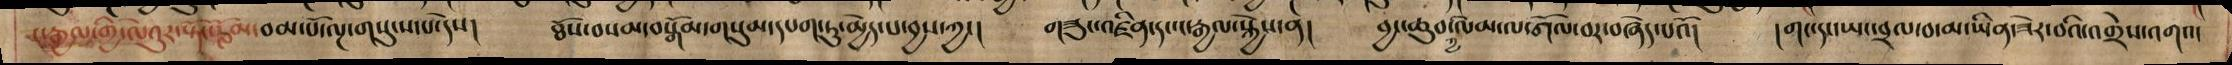ང་རྒྱལ་གྱི་ལེའུར་སྟོང་རློམ་བམ་པོ་ལྔ་གསུངས་པ་དེས། ཐོས་བསམ་བསྒོམ་གསུམ་དཔག་ཏུ་མྱེད་པ་བྱས་ཀྱང། གཟུང་འཛིན་དང་ང་རྒྱལ་སྐྱེས་ན། བྱང་ཆུབ་ལམ་ལ་གོལ་བར་བཞེད་པའོ། །གང་དང་ཡང་བྲལ་བ་མ་ཡིན་ཟེར་བའི་འགྲེས་འགའ་
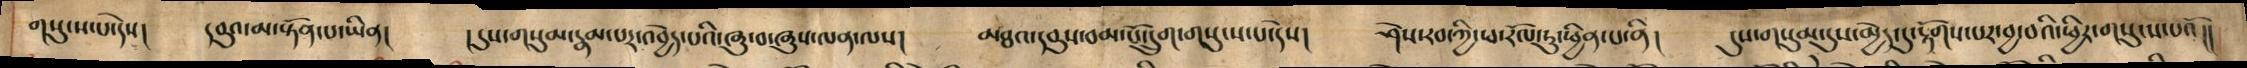གསུངས་པ་དེས། དབུའ་མ་སྟོན་པ་ཡིན། །དུས་གསུམ་རྣམ་པར་འབྱེད་པའི་ཞུ་བ་ཞུས་ལན་ནས། མཐའ་དབུས་བམ་པོ་དྲུག་གསུངས་པ་དེས། ཤེས་རབ་ཀྱི་ཕ་རོལ་ཏུ་ཕྱིན་པ་ནི། དུས་གསུམ་དུས་མྱེད་དུ་རྟོགས་པར་བྱ་བའི་ཕྱིར་གསུངས་པའོ།།
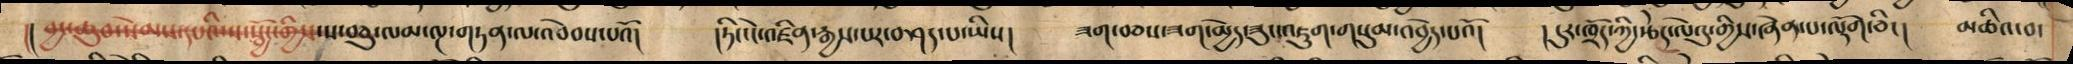།། བྱང་ཆུབ་སེམས་དཔའི་ས་སྦྱོང་གྱིས་ས་བཅུ་ལམ་ལྔ་གཏན་ལ་འབེབས་པའོ། །ཏིང་ངེ་འཛིན་རྒྱས་པར་བཤད་པ་ཡིས། ཟག་བཅས་ཟག་མྱེད་ཟུང་འཇུག་གསུམ་འབྱེད་པའོ། ། དུར་ཁྲོད་ཀྱི་རྩེད་ལེའུ་གྱིས་ཞེན་པ་ལྡོག་ཅིང། མཆིའ་བ་
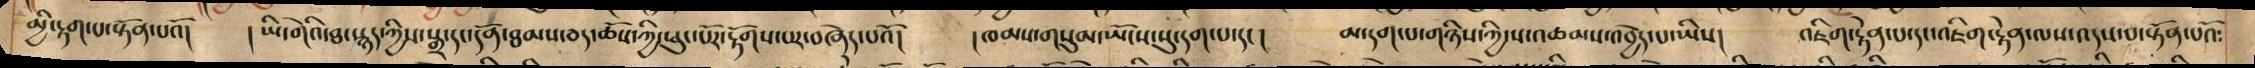མྱི་རྟག་པ་སྟོན་པའོ། ། ཡི་གེའི་ཐ་སྙད་ཀྱིས་སྒྲ་དང་དོན་ཐམས་ཅད་ཆོས་ཀྱི་ཕུང་པོར་རྟོགས་པར་བཞེད་པའོ། །ཁམས་གསུམ་ཡོངས་སུ་དག་པ་དང། མ་དག་པ་གཉིས་ཀྱི་ས་འཆམས་འབྱེད་པ་ཡིས། འཇིག་རྟེན་པ་དང་འཇིག་རྟེན་ལས་འདས་པ་སྟོན་པའོ:
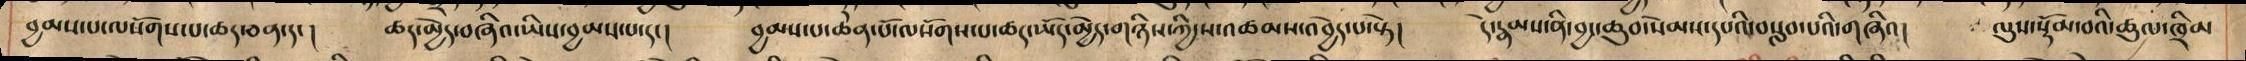བྱམས་པ་ལསོགས་པ་ཆད་ཅན་དང། ཆད་མྱེད་བཞིའ་ཡིས་བྱམས་པ་དང། བྱམས་པ་ཆེན་པོ་ལསོགས་པ་ཆད་ཡོད་མྱེད་གཉིས་ཀྱི་ས་འཚམས་འབྱེད་པ་སྟེ། དེ་རྣམས་ནི་བྱང་ཆུབ་སེམས་དཔའི་བསླབ་པའི་གཞིའ། ལུས་སྡོམ་བའི་ཚུལ་ཁྲིམ
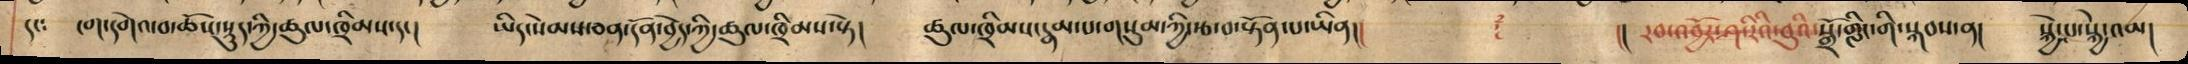དང: ངག་དགེའ་བ་ཆོས་སྡུད་ཀྱི་ཚུལ་ཁྲིམས་དང། ཡིད་སེམས་ཅན་དོན་བྱེད་ཀྱི་ཚུལ་ཁྲིམས་སྟེ། ཚུལ་ཁྲིམས་རྣམ་པ་གསུམ་ཀྱི་རྩ་བ་སྟོན་པ་ཡི།། ༈ །། རབ་འབྱོར་ཤ་རིའི་བུའི་སྒྲོ་གླིང་གི་སྐབས་ན། སྐྱེ་པ་སྐྱེ་འམ།
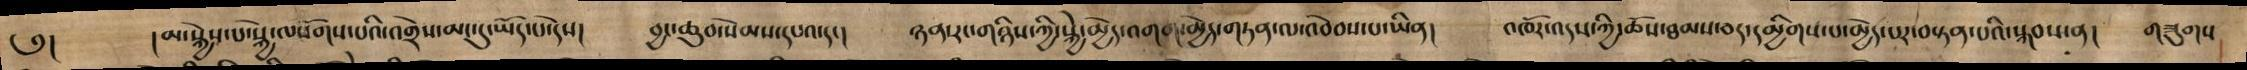༄༅། །མ་སྐྱེས་པ་སྐྱེས་ལསོགས་པའི་འགྲེས་མང་དུ་ཡོད་པ་དེས། བྱང་ཆུབ་སེམས་དཔའ་དང། ཉན་རང་གཉིས་ཀྱི་སྐྱེ་མྱེད་འགག་མྱེད་གཏན་ལ་འབེབས་པ་ཡིན། འཁོར་འདས་ཀྱི་ཆོས་ཐམས་ཅད་དམྱིགས་པ་མྱེད་པར་བསྟན་པའི་སྐབས་ན། གཟུགས
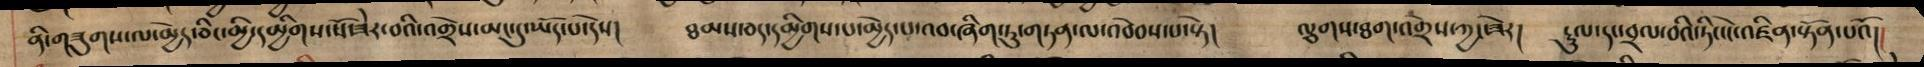ནི་གཟུགས་ལ་མྱེད་ཅིང་མྱི་དམྱིགས་སོ་ཟེར་བའི་འགྲེས་མང་དུ་ཡོད་པ་དེས། ཐམས་ཅད་དམྱིགས་པ་མྱེད་པ་འབ་ཞིག་ཏུ་གཏན་ལ་འབེབས་པ་སྟེ། ལྕགས་ཐག་འགྲེས་ཀྱང་ཟེར། རྡུལ་དང་བྲལ་བའི་ཏིང་ངེ་འཛིན་སྟོན་པའོ།།
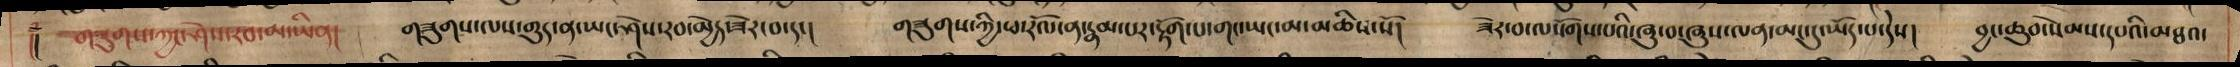།། གཟུགས་ཀྱང་ཤེས་རབ་མ་ཡི། གཟུགས་ལས་གུད་ན་ཡང་ཤེས་རབ་མྱེད་ཟེར་བ་དང། གཟུགས་ཀྱི་ཕ་རོལ་ན་རྣམ་པར་རྟོག་པ་གང་ཡང་མ་མཆིས་སོ། ཟེར་བ་ལསོགས་པའི་ཞུ་བ་ཞུས་ལན་མང་དུ་ཡོད་པ་དེས། བྱང་ཆུབ་སེམས་དཔའི་མཐའ་
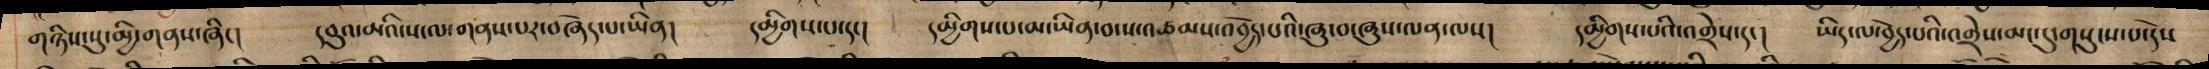གཉིས་སུ་མྱི་གཉས་ཞིང། དབུའ་མའི་ས་ལ་གནས་པར་བཞེད་པ་ཡི། དམྱིགས་པ་དང། དམྱིགས་པ་མ་ཡིན་བ་ས་འཚམས་འབྱེད་པའི་ཞུ་བ་ཞཱུས་ལན་ལས། དམྱིགས་པའི་འགྲེས་དང། ཡིད་ལ་བྱེད་པའི་འགྲེས་མང་དུ་གསུངས་པ་དེས
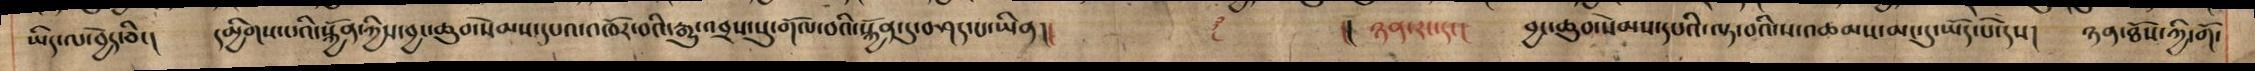ཡིད་ལ་བྱེད་ཅིང། དམྱིགས་པའི་སྐྱོན་ཀྱིས་བྱང་ཆུབ་སེམས་དཔའ་འཁོར་བའི་རྒྱུ་འབྲས་སུ་གོལ་བའི་སྐྱོན་དུ་བཤད་པ་ཡིན།། །། ཉན་རང་དང། བྱང་ཆུབ་སེམས་དཔའི་ལྟ་བའི་ས་འཚམས་མང་དུ་ཡོད་པ་དེས། ཉན་ཐོས་ཀྱི་གོ་
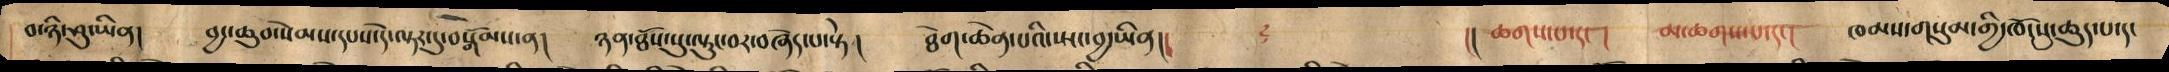བ་ཉི་ཤུ་ཡིན། བྱང་ཆུབ་སེམས་དཔས་དེ་ལྟར་དུ་བསྒོམས་ན། ཉན་ཐོས་སུ་ལྟུང་བར་བཞེད་པ་སྟེ། ཐེག་ཆེན་པའི་ཡང་བྱ་ཡིན། །། ཆགས་པ་དང ། མ་ཆགས་པ་དང། ཁམས་གསུམ་གྱི་ཁོངསུ་ཆུད་པ་དང
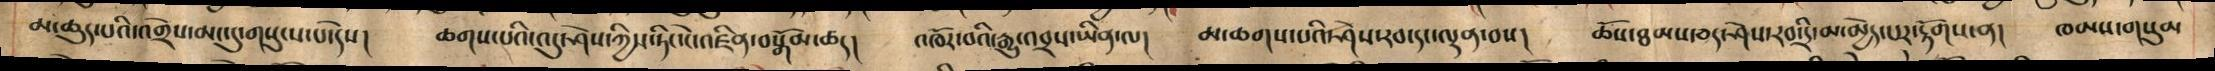མ་ཆུད་པའི་འགྲེས་མང་དུ་གསུངས་པ་དེས། ཆགས་པའི་འདུ་ཤེས་ཀྱིས་ཏིང་ངེ་འཛིན་བསྒོམ་ཆད། འཁོར་བའི་རྒྱུ་འབྲས་ཡིན་ལ། མ་ཆགས་པའི་ཤེས་རབ་དང་ལྡན་བས། ཆོས་ཐམས་ཅད་ཤེས་རབ་དྲི་མ་མྱེད་པར་རྟོགས་ན། ཁམས་གསུམ
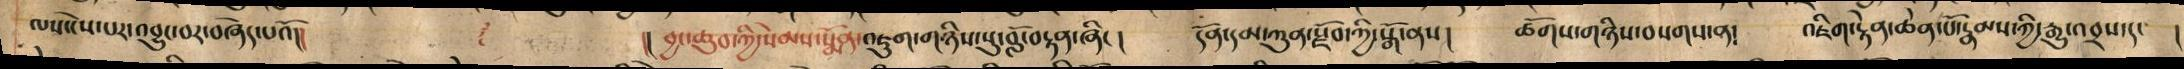ལས་ངེས་པར་འབྱུང་བར་བཞེད་པའོ།། ༈ །། བྱང་ཆུབ་ཀྱི་སེམས་སྨོན་འཇུག་གཉིས་སུ་བློ་བརྟན་ཞིང། དོན་དམ་ཀུན་སྫོབ་ཀྱི་སྒོ་ནས། ཚོགས་གཉིས་བསགས་ན། འཇིག་རྟེན་ཆེན་པོ་རྣམས་ཀྱི་རྒྱུ་འབྲས་དང །
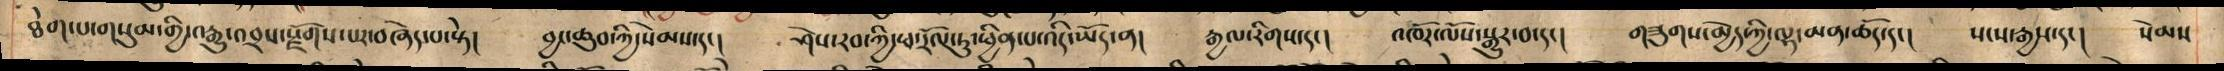ཐེག་པ་གསུམ་གྱི་འརྒྱུ་འབྲས་སྫོགས་པར་བཞེད་པ་སྟེ། བྱང་ཆུབ་ཀྱི་སེམས་དང། ཤེས་རབ་ཀྱི་ཕ་རོལ་ཏུ་ཕྱིན་པ་འདི་ཡོད་ན། རྒྱལ་རིགས་དང། འཁོར་ལོས་སྒྱུར་བ་དང། གཟུགས་མྱེད་ཀྱི་ལྷ་མན་ཆོད་དང། སངས་རྒྱས་དང། སེམས
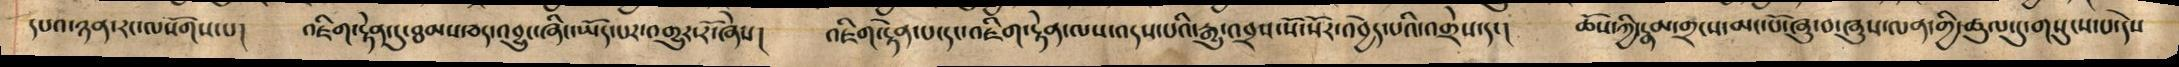དཔའ་ཉན་རང་ལསོགས་པ། འཇིག་རྟེན་དུ་ཐམས་ཅད་འབྱུང་ཞིང་ཡོད་པར་འགྱུར་རོ་ཞེས། འཇིག་རྟེན་པ་དང་འཇིག་རྟེན་ལས་འདས་པའི་རྒྱུ་འབྲས་སོ་སོར་འབྱེད་པའི་འགྲེས་དང། ཆོས་ཀྱི་རྣམ་གྲངས་མང་པོ་ཞུ་བ་ཞུས་ལན་གྱི་ཚུལ་དུ་གསུངས་པ་དེས
